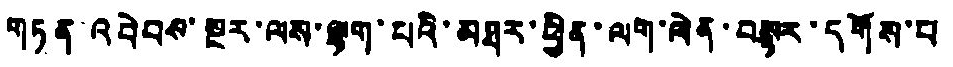གཏན་འབེབས་སྔར་ལས་ལྷག་པའི་མཐར་ཕྱིན་ལག་ལེན་བསྟར་དགོས་པ
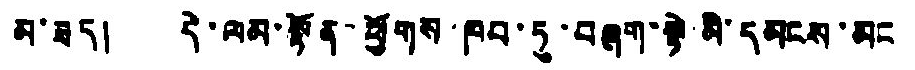མ་ཟད། དེ་ལམ་སྟོན་ཕྱོགས་ཁབ་ཏུ་བཞག་སྟེ་མི་དམངས་མང
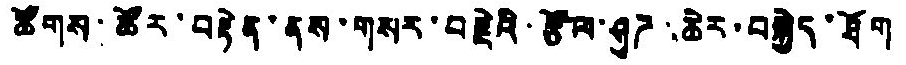ཚོགས་ཚོར་བརྟེན་ནས་གསར་བརྗེའི་རྩོལ་ཤུཌ་ཆེར་བསྐྱེད་ཐོག
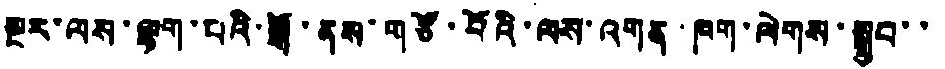སྔར་ལས་ལྷག་པའི་སྒོ་ནས་གཙོ་བོའི་ལས་འགན་ཁག་ལེགས་སྒྲུབ་་
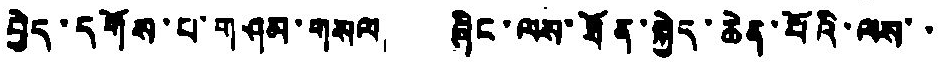བྱེད་དགོས་པ་གཤམ་གསལ། ཞིང་ལས་ཐོན་སྐྱེད་ཆེན་པོའི་ལས་་
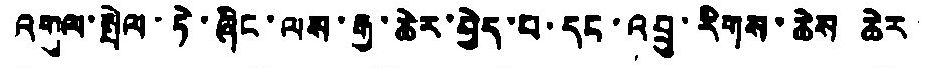འགུལ་སྤེལ་ཏེ་ཞིང་ལས་རྒྱ་ཆེར་བྱེད་པ་དང་འབྲུ་རིགས་ཆེས ཆེར་
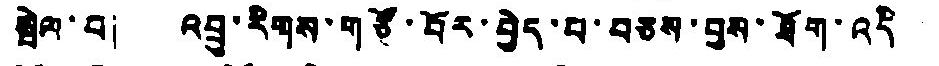སྦྲེལ་བ། འབྲུ་རིགས་གཙོ་བོར་བྱེད་པ་བཅས་བྱས་ཐོག་འདི
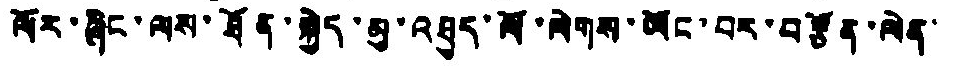ལོར་ཞིང་ལས་ཐོན་སྐྱེད་མུ་འཐུད་ལོ་ལེགས་ཡོང་བར་བརྩོན་ལེན་
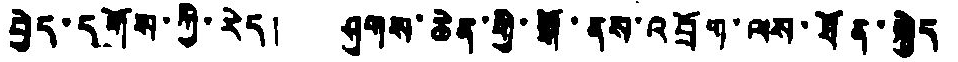བྱེད་དགོས་ཀྱི་རེད། ཤུགས་ཆེན་གྱི་སྒོ་ནས་འབྲོག་ལས་ཐོན་སྐྱེད
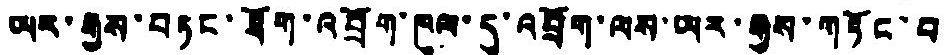ཡར་རྒྱས་བཏང་ཐོག་འབྲོག་ཁུལ་དུ་འབྲོག་ལས་ཡར་རྒྱས་གཏོང་བ
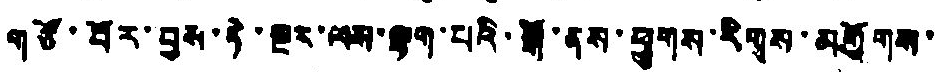གཙོ་བོར་བྱས་ཏེ་སྔར་ལས་ལྷག་པའི་སྒོ་ནས་ཕྱུགས་རིགས་མགྱོགས་
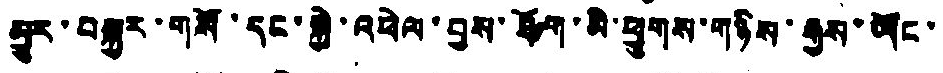མྱུར་བསྐྱར་གསོ་དང་སྐྱེ་འཕེལ་བྱས་ཐོག་མི་ཕྱུགས་གཉིས་རྒྱས་ཡོང་
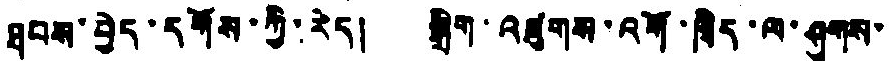ཐབས་བྱེད་དགོས་ཀྱི་རེད། སྒྲིག་འཛུགས་འགོ་ཁྲིད་ལ་ཤུགས་
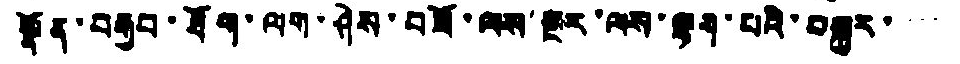སྣོན་བརྒྱབ་ཐོག་ལག་ཤེས་བཟོ་ལས་སྔར་ལས་ལྟག་པའི་བསྐྱར་་་་
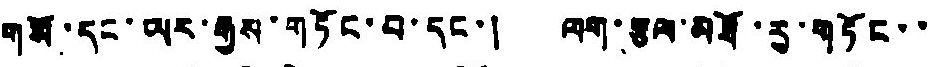གསོ་དང་ཡར་རྒྱས་གཏོང་བ་དང་། ལག་རྩལ་མཐོ་རུ་གཏོང་་
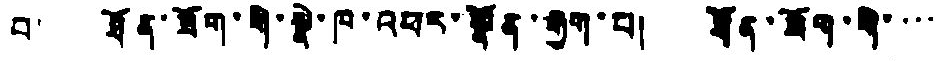བ། ཐོན་ཟོག་གི་སྣེ་ཁ་འཕར་སྣོན་རྒྱག་པ། ཐོན་ཟོག་གི་་་་
